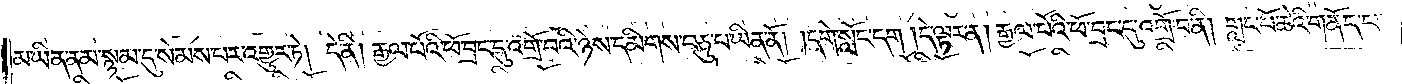མ་ཡིན་ནམ་སྙམ་དུ་སེམས་པར་འགྱུར་ཏེ། དེ་ནི། རྒྱལ་པོའི་ཕོ་བྲང་དུ་འགྲོ་བའི་ཉེས་དམིགས་བཅུ་པ་ཡིན་ནོ། །དགེ་སློང་དག །དེ་ལྟར་ན། རྒྱལ་པོའི་ཕོ་བྲང་དུ་འགྲོ་བ་ནི། གླང་པོ་ཆེའི་གནོད་པ་
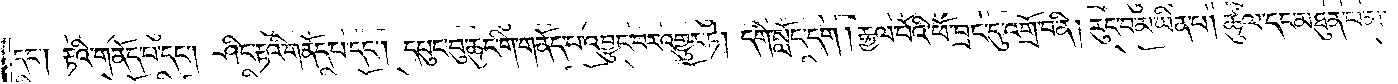དང༌། རྟའི་གནོད་པ་དང༌། ཤིང་རྟའི་གནོད་པ་དང༌། དཔུང་བུ་ཆུང་གི་གནོད་པ་འབྱུང་བར་འགྱུར་ཏེ། དགེ་སློང་དག །རྒྱལ་པོའི་ཕོ་བྲང་དུ་འགྲོ་བ་ནི། རུང་བ་མ་ཡིན་པ། ཚུལ་དང་མཐུན་པ་མ་
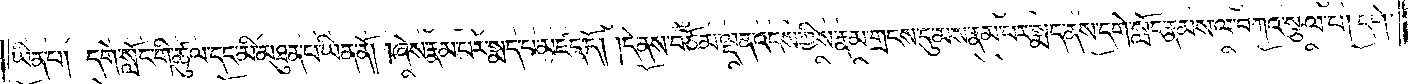ཡིན་པ། དགེ་སློང་གི་ཚུལ་དང་མི་མཐུན་པ་ཡིན་ནོ། །ཞེས་རྣམ་པར་སྨད་པ་མཛད་དོ། །དེ་ནས་བཅོམ་ལྡན་འདས་ཀྱིས་རྣམ་གྲངས་དུ་མས་རྣམ་པར་སྨད་ནས་དགེ་སློང་རྣམས་ལ་བཀའ་སྩལ་པ། དགེ་
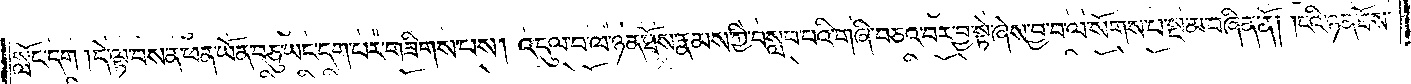སློང་དག །དེ་ལྟ་བས་ན་ཕན་ཡོན་བཅུ་ཡང་དག་པར་གཟིགས་པས། འདུལ་བ་ལ་ཉན་ཐོས་རྣམས་ཀྱི་བསླབ་པའི་གཞི་བཅའ་བར་བྱ་སྟེ་ཞེས་བྱ་བ་ལ་སོགས་པ་སྔ་མ་བཞིན་ནོ། །ངའི་ཉན་ཐོས་
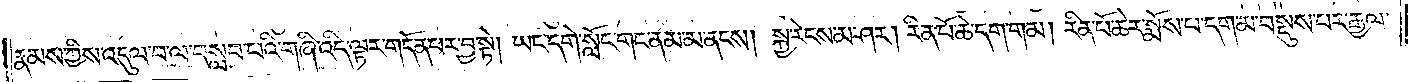རྣམས་ཀྱིས་འདུལ་བ་ལ་བསླབ་པའི་གཞི་འདི་ལྟར་གདོན་པར་བྱ་སྟེ། ཡང་དགེ་སློང་གང་ནམ་མ་ནངས། སྐྱ་རེངས་མ་ཤར། རིན་པོ་ཆེ་དག་གམ། རིན་པོ་ཆེར་སྨོས་པ་དག་མ་བསྡུས་པར་རྒྱལ་
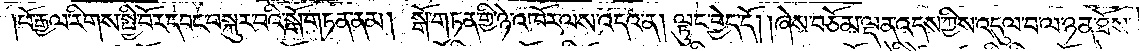པོ་རྒྱལ་རིགས་སྤྱི་བོར་དབང་བསྐུར་བའི་སྒོ་གཏན་ནམ། སྒོ་གཏན་གྱི་ཉེ་འཁོར་ནས་འདའ་ན། ལྟུང་བྱེད་དོ། །ཞེས་བཅོམ་ལྡན་འདས་ཀྱིས་འདུལ་བ་ལ་ཉན་ཐོས་
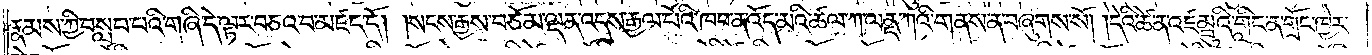རྣམས་ཀྱི་བསླབ་པའི་གཞི་དེ་ལྟར་བཅའ་བ་མཛད་དོ། །སངས་རྒྱས་བཅོམ་ལྡན་འདས་རྒྱལ་པོའི་ཁབ་ན་འོད་མའི་ཚལ་ཀ་ལནྡ་ཀའི་གནས་ན་བཞུགས་སོ། །དེའི་ཚེ་ན་འྫམྦུའི་གླིང་ན་གྲོང་ཁྱེར་
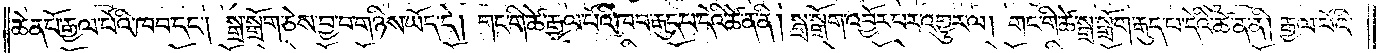ཆེན་པོ་རྒྱལ་པོའི་ཁབ་དང༌། སྒྲ་སྒྲོག་ཅེས་བྱ་བ་གཉིས་ཡོད་དེ། གང་གི་ཚེ་རྒྱལ་པོའི་ཁབ་རྒུད་པ་དེའི་ཚེ་ན་ནི། སྒྲ་སྒྲོག་འབྱོར་པར་འགྱུར་ལ། གང་གི་ཚེ་སྒྲ་སྒྲོག་རྒུད་པ་དེའི་ཚེ་ན་ནི། རྒྱལ་པོའི་
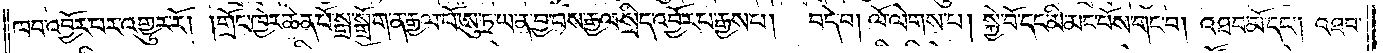ཁབ་འབྱོར་པར་འགྱུར་རོ། །གྲོང་ཁྱེར་ཆེན་པོ་སྒྲ་སྒྲོག་ན་རྒྱལ་པོ་ཨུ་ཏྲ་ཡ་ན་བྱ་བས་རྒྱལ་སྲིད་འབྱོར་པ་རྒྱས་པ། བདེ་བ། ལོ་ལེགས་པ། སྐྱེ་བོ་དང་མི་མང་པོས་གང་བ། འཐབ་མོ་དང༌། འཐབ་
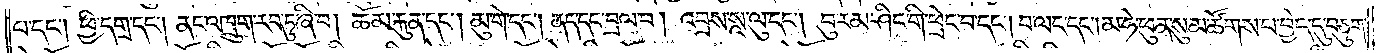པ་དང༌། ཕྱི་དགྲ་དང༌། ནང་འཁྲུག་རབ་ཏུ་ཞི་བ། ཆོམ་རྐུན་དང༌། མུ་གེ་དང༌། ནད་དང་བྲལ་བ། འབྲས་སཱ་ལུ་དང༌། བུ་རམ་ཤིང་གི་ཕྲེང་བ་དང༌། བ་ལང་དང༌། མ་ཧེ་ཕུན་སུམ་ཚོགས་པ་བྱེད་དུ་བཅུག་
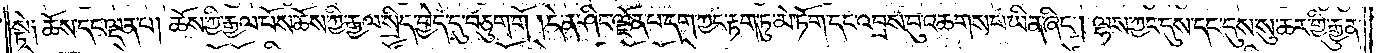སྟེ༑ ཆོས་དང་ལྡན་པ། ཆོས་ཀྱི་རྒྱལ་པོས་ཆོས་ཀྱི་རྒྱལ་སྲིད་བྱེད་དུ་བཅུག་གོ །དེ་ན་ཤིང་ལྗོན་པ་དག་ཀྱང་རྟག་ཏུ་མེ་ཏོག་དང་འབྲས་བུ་འཆགས་པ་ཡིན་ཞིང༌། ལྷས་ཀྱང་དུས་དང་དུས་སུ་ཆར་གྱི་རྒྱུན་
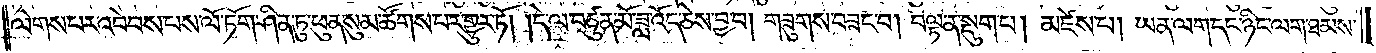ལེགས་པར་འབེབས་པས་ལོ་ཏོག་ཤིན་ཏུ་ཕུན་སུམ་ཚོགས་པར་གྱུར་ཏོ། །དེ་ལ་བཙུན་མོ་ཟླ་འོད་ཅེས་བྱ་བ། གཟུགས་བཟང་བ། བལྟ་ན་སྡུག་པ། མཛེས་པ། ཡན་ལག་དང་ཉིང་ལག་ཐམས་
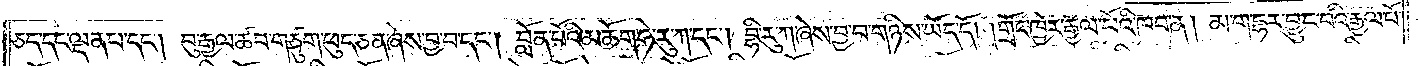ཅད་དང་ལྡན་པ་དང༌། བུ་རྒྱལ་ཚབ་གཙུག་ཕུད་ཅན་ཞེས་བྱ་བ་དང༌། བློན་པོའི་མཆོག་ཧེ་རུ་ཀ་དང༌། བྷི་རུ་ཀ་ཞེས་བྱ་བ་གཉིས་ཡོད་དོ། །གྲོང་ཁྱེར་རྒྱལ་པོའི་ཁབ་ན། མ་ག་དྷར་བྱུང་བའི་རྒྱལ་པོ་
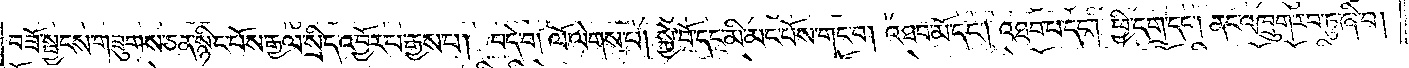བཟོ་སྦྱངས་གཟུགས་ཅན་སྙིང་པོས་རྒྱལ་སྲིད་འབྱོར་པ་རྒྱས་པ། བདེ་བ། ལོ་ལེགས་པ། སྐྱེ་བོ་དང་མི་མང་པོས་གང་བ། འཐབ་མོ་དང༌། འཐབ་པ་དང༌། ཕྱི་དགྲ་དང༌། ནང་འཁྲུག་རབ་ཏུ་ཞི་བ།
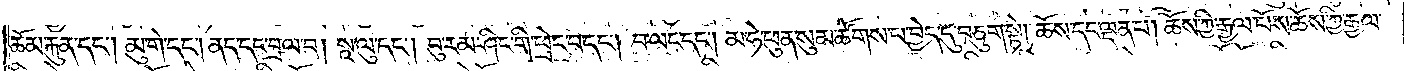ཆོམ་རྐུན་དང༌། མུ་གེ་དང༌། ནད་དང་བྲལ་བ། སཱ་ལུ་དང༌། བུ་རམ་ཤིང་གི་ཕྲེང་བ་དང༌། བ་ལང་དང༌། མ་ཧེ་ཕུན་སུམ་ཚོགས་པ་བྱེད་དུ་བཅུག་སྟེ། ཆོས་དང་ལྡན་པ། ཆོས་ཀྱི་རྒྱལ་པོས་ཆོས་ཀྱི་རྒྱལ་
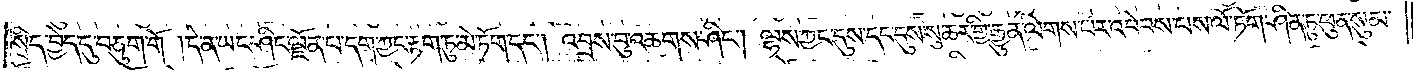སྲིད་བྱེད་དུ་བཅུག་གོ །དེ་ན་ཡང་ཤིང་ལྗོན་པ་དག་ཀྱང་རྟག་ཏུ་མེ་ཏོག་དང༌། འབྲས་བུ་འཆགས་ཤིང༌། ལྷས་ཀྱང་དུས་དང་དུས་སུ་ཆར་གྱི་རྒྱུན་ལེགས་པར་འབེབས་པས་ལོ་ཏོག་ཤིན་ཏུ་ཕུན་སུམ་
